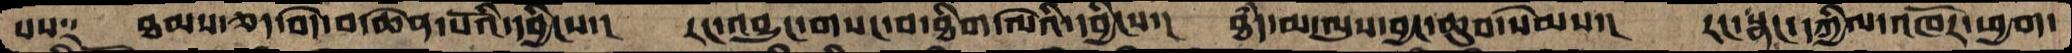པས༑   ཐམས་ཅད་བདེ་བ་ཆེན་པོའི་དབྱིངས་།  རང་འབྱུང་གསང་བ་ཐིག་ལེའི་དབྱིངས་།  ཐཾད་མ་ལུས་བྱང་ཆུབ་སེམས་།  རང་སྣང་དཀྱིལ་འཁོར་ཕྱག་
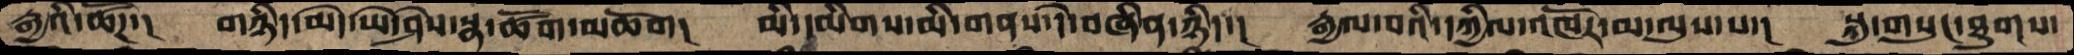རྒྱའི་ཚོཌ་།   གཉིད་མེད་ཡེ་ཤེས་སྣ་ཚོགས་མཆོག།  མི་དམིགས་མི་གནས་དེ་བཞིན་ཉིད་།  རྒྱལ་བའི་དཀྱིལ་འཁོར་མ་ལུས་པ་།  སྐུ་གསུང་ཐུགས་
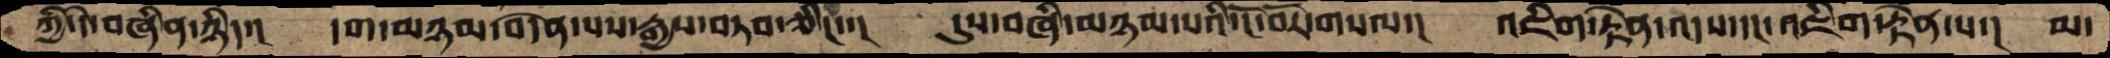ཀྱི་དེ་བཞིན་ཉིད་།  དག་མཉམ་བདེན་པས་རྒྱས་བཏབ་ཅིང་་།  དུས་བཞི་མཉམ་པའི་ངོ་བོར་གསལ་།  འཇིག་རྟེན་འདས་དང་འཇིག་རྟེན་པ་།  མ་
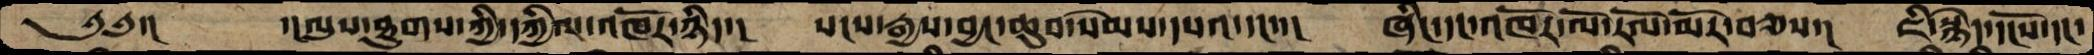༄༅་།   ་།ལུས་ཐུགས་ཀྱི་དཀྱིལ་འཁོར་ཉིད་།   སངས་རྒྱས་བྱང་ཆུབ་སེམས་དཔའ་དང་་།  ཞིང་དང་འཁོར་ལོ་རོལ་མོར་བཅས་།  ཇི་སྙེད་དངོས་དང་
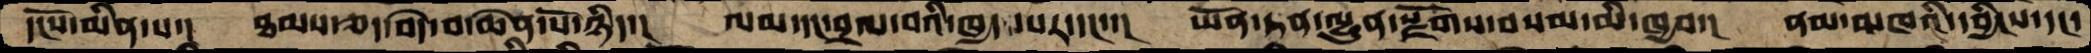དངོས་མིན་པ་།  ཐམས་ཅད་བདེ་བ་ཆེན་པོ་ཉིད་།  ལམ་དང་བྲལ་བའི་ཁྱད་པར་དང་་།   ཡོན་ཏན་ལྷུན་སྫོགས་བསམ་མི་ཁྱབ་།  ནམ་མཁའི་དབྱིངས་དང་
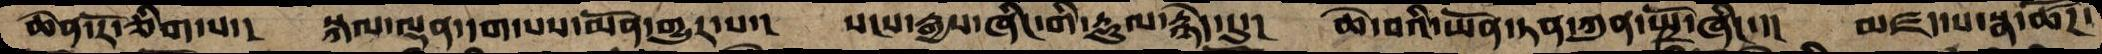ཆེན་རོ་ཅིག་པ་།  སྐལ་ལྡན་དག་པས་མོན་གྱུར་པ་།  སངས་རྒྱས་ཞིང་གི་རྡུལ་རྙེད་དུ་།  ཆེ་བའི་ཡོན་ཏན་ཀུན་སྤྲོ་ཞིང་་།  མཛད་པ་སྣ་ཚོཌ་
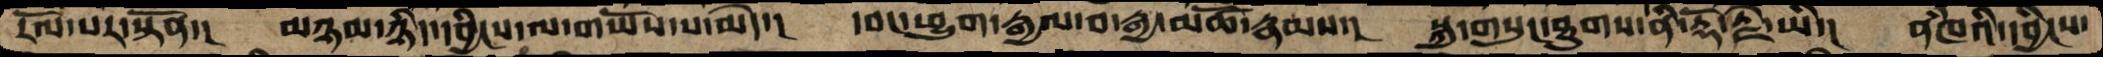རོལ་པར་སྟོན་།  མཉམ་ཉིད་དབྱིངས་ལ་གཡོས་པ་མེད་།   དབང་ཕྱུག་རྒྱལ་བ་རྒྱ་མཚོ་རྣམས་།  སྐུ་གསུང་ཐུགས་ནི་རྡོ་རྗེ་ཡི་།   ནཾཁའི་དབྱིངས་
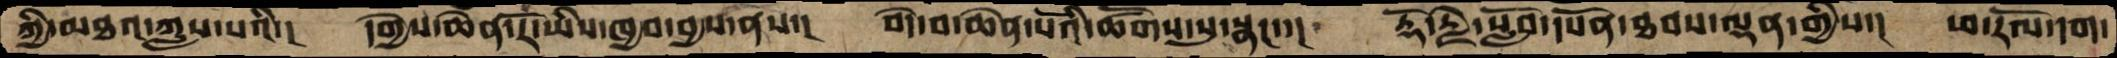ཀྱི་མཐའ་ཀླས་པའི་།   དགྱེས་ཆེན་རོ་ཡིས་ཁྱབ་བྱས་ནས་།   བདེ་བ་ཆེན་པོའི་ཚོགས་སུ་སྣང་་།    རྡོ་རྗེ་སློོབ་དཔོན་ཐབས་ལྡན་གྱིས་།  ཕ་རོལ་དག་
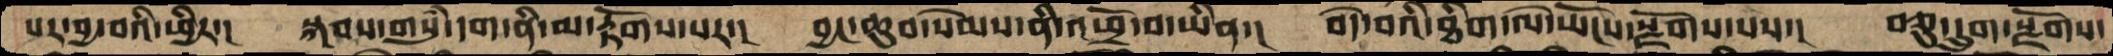པར་བྱ་བའི་ཕྱིར་།  སྐབས་གསུཾ་དག་ནི་མ་རྟོགས་པར་།  བྱང་ཆུབ་སེམས་ནི་འཕྲོ་བ་ཡིན་།  བདེ་བའི་ཐིག་ལེ་ཡོངས་སྫོགས་པས་།  བཅུ་དྲུག་སྫོགས་
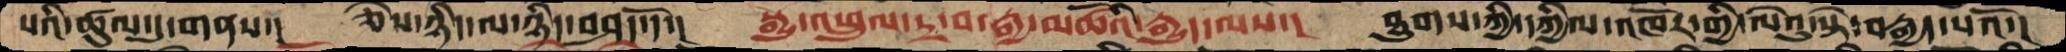པའི་ཚུལ་དུ་གནས་།   ཅེས་ཉིད་ལ་ཉིད་བཤད་དོ་།   སྒྱུ་འཕྲུལ་དྲ་བ་རྒྱ་མཚོའི་རྒྱུད་ལས་།  ཐུགས་ཀྱི་དཀྱིལ་འཁོར་གྱི་ལེའུ་སྟེ་བརྒྱད་པའོ་།
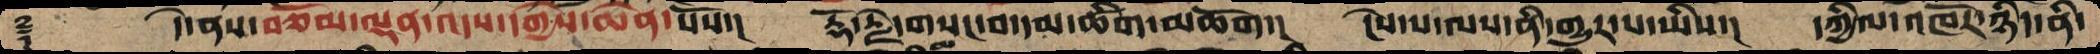࿑   དེ་ནས་བཅོམ་ལྡན་འདས་དགྱེས་ཆེན་པོས་།  རྡོ་རྗེ་གསང་བ་དམ་ཚིག་མཆོག་།  ངེས་པ་ལས་ནི་གྱུར་པ་ཡིས་།  དཀྱིལ་འཁོར་ཉིད་ནི་
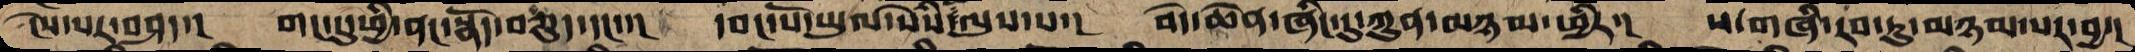ངེས་པར་བཤད་།   གང་དུ་ཕྱི་ནང་སྣོད་བཅུད་དང་་།  དབང་པོ་ཡུལ་སེསཾ་ལུས་པ་།  བདེ་ཆེན་ཞིང་དུ་ཀུན་མཉམ་ཕྱིར་།  ས་གཞི་རབ་ཏུ་མཉམ་པར་བྱ་།
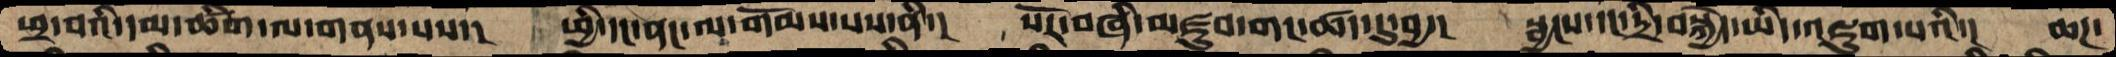ཕྲ་བའི་དམ་ཚིག་ལ་གནས་པས་།  ཕྱི་དང་ནང་ལ་གོམས་པས་ནི་།  སོར་བཞི་མཛུབ་གང་ཚད་དུ་བྱ་།  སྦྱངས་དང་དྲི་བསྐྱེད་ཡིད་འཇུག་པའི་།  ཆཌ་
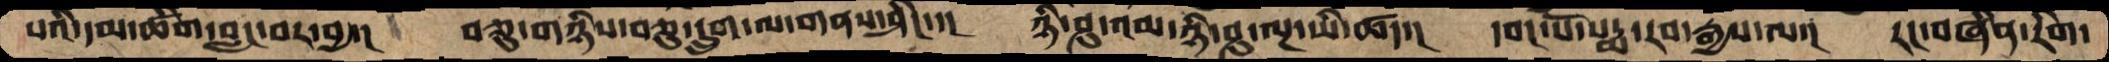པའི་དམ་ཚིག་བླང་བར་བྱ་།  བཅུ་གཉིས་བཅུ་དྲུག་ལ་གནས་ཤིང་་།   ཉི་ཤུ་འམ་ཉི་ཤུ་ལྔ་ཡི་ཚད་།   དབང་པོ་པདྨ་རབ་རྒྱས་ལ་།  རང་བཞིིན་རིག་
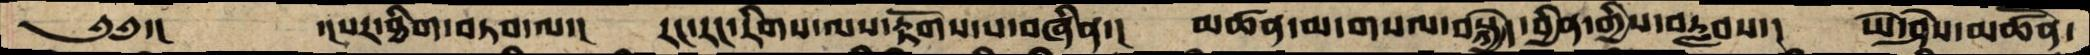༄༅་།          ་།པར་ཐིག་བཏབ་ལ་།   རང་རང་རིགས་ལས་རྟོགས་པ་བཞིན་།  མཚན་མ་གསལ་བསྐྱེད་བྱིན་གྱིས་བརླབས་།   ཡེ་ཤེས་མཚོན་
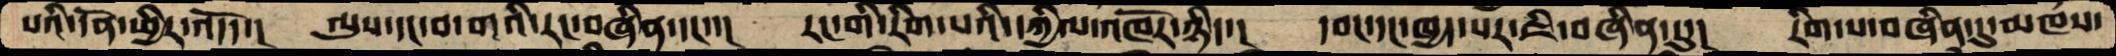པའི་དོན་ཕྱིར་འདོད་།  ལུས་དང་བ་གའི་རང་བཞིན་དང་་།   རང་གི་རིག་པའི་དཀྱིལ་འཁོར་ཉིད་།  དབང་དང་ཁྱད་པར་ཇི་བཞིན་དུ་།    རིག་པ་བཞིན་དུ་མཁས་
